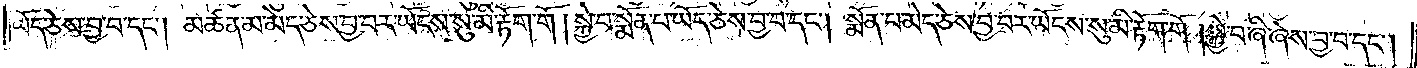ཡོད་ཅེས་བྱ་བ་དང༌། མཚན་མ་མེད་ཅེས་བྱ་བར་ཡོངས་སུ་མི་རྟོག་གོ །སྐྱེ་བ་སྨོན་པ་ཡོད་ཅེས་བྱ་བ་དང༌། སྨོན་པ་མེད་ཅེས་བྱ་བར་ཡོངས་སུ་མི་རྟོག་གོ །སྐྱེ་བ་ཞི་ཞེས་བྱ་བ་དང༌།
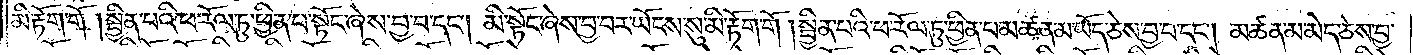མི་རྟོག་གོ །སྦྱིན་པའི་ཕ་རོལ་ཏུ་ཕྱིན་པ་སྟོང་ཞེས་བྱ་བ་དང༌། མི་སྟོང་ཞེས་བྱ་བར་ཡོངས་སུ་མི་རྟོག་གོ །སྦྱིན་པའི་ཕ་རོལ་ཏུ་ཕྱིན་པ་མཚན་མ་ཡོད་ཅེས་བྱ་བ་དང༌། མཚན་མ་མེད་ཅེས་བྱ་
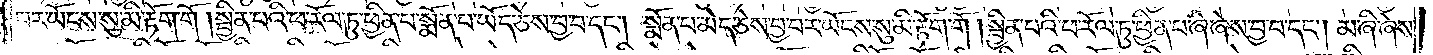བར་ཡོངས་སུ་མི་རྟོག་གོ །སྦྱིན་པའི་ཕ་རོལ་ཏུ་ཕྱིན་པ་སྨོན་པ་ཡོད་ཅེས་བྱ་བ་དང༌། སྨོན་པ་མེད་ཅེས་བྱ་བར་ཡོངས་སུ་མི་རྟོག་གོ །སྦྱིན་པའི་ཕ་རོལ་ཏུ་ཕྱིན་པ་ཞི་ཞེས་བྱ་བ་དང༌། མ་ཞི་ཞེས་
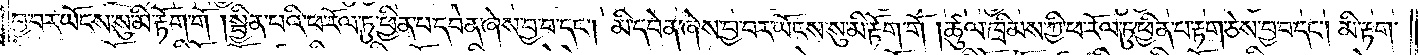བྱ་བར་ཡོངས་སུ་མི་རྟོག་གོ །སྦྱིན་པའི་ཕ་རོལ་ཏུ་ཕྱིན་པ་དབེན་ཞེས་བྱ་བ་དང༌། མི་དབེན་ཞེས་བྱ་བར་ཡོངས་སུ་མི་རྟོག་གོ །ཚུལ་ཁྲིམས་ཀྱི་ཕ་རོལ་ཏུ་ཕྱིན་པ་རྟག་ཅེས་བྱ་བ་དང༌། མི་རྟག་
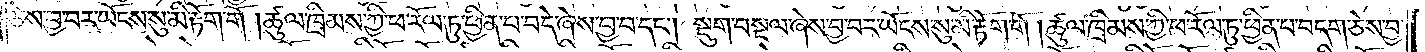ཅེས་བྱ་བར་ཡོངས་སུ་མི་རྟོག་གོ །ཚུལ་ཁྲིམས་ཀྱི་ཕ་རོལ་ཏུ་ཕྱིན་པ་བདེ་ཞེས་བྱ་བ་དང༌། སྡུག་བསྔལ་ཞེས་བྱ་བར་ཡོངས་སུ་མི་རྟོག་གོ །ཚུལ་ཁྲིམས་ཀྱི་ཕ་རོལ་ཏུ་ཕྱིན་པ་བདག་ཅེས་བྱ་
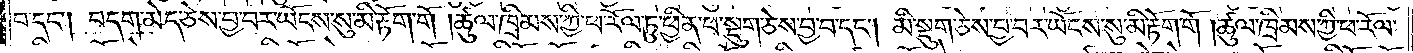བ་དང༌། བདག་མེད་ཅེས་བྱ་བར་ཡོངས་སུ་མི་རྟོག་གོ །ཚུལ་ཁྲིམས་ཀྱི་ཕ་རོལ་ཏུ་ཕྱིན་པ་སྡུག་ཅེས་བྱ་བ་དང༌། མི་སྡུག་ཅེས་བྱ་བར་ཡོངས་སུ་མི་རྟོག་གོ །ཚུལ་ཁྲིམས་ཀྱི་ཕ་རོལ་
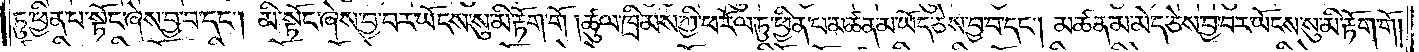ཏུ་ཕྱིན་པ་སྟོང་ཞེས་བྱ་བ་དང༌། མི་སྟོང་ཞེས་བྱ་བར་ཡོངས་སུ་མི་རྟོག་གོ །ཚུལ་ཁྲིམས་ཀྱི་ཕ་རོལ་ཏུ་ཕྱིན་པ་མཚན་མ་ཡོད་ཅེས་བྱ་བ་དང༌། མཚན་མ་མེད་ཅེས་བྱ་བར་ཡོངས་སུ་མི་རྟོག་གོ །
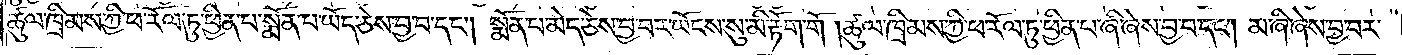ཚུལ་ཁྲིམས་ཀྱི་ཕ་རོལ་ཏུ་ཕྱིན་པ་སྨོན་པ་ཡོད་ཅེས་བྱ་བ་དང༌། སྨོན་པ་མེད་ཅེས་བྱ་བར་ཡོངས་སུ་མི་རྟོག་གོ །ཚུལ་ཁྲིམས་ཀྱི་ཕ་རོལ་ཏུ་ཕྱིན་པ་ཞི་ཞེས་བྱ་བ་དང༌། མ་ཞི་ཞེས་བྱ་བར་
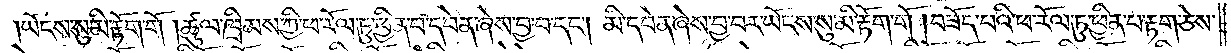ཡོངས་སུ་མི་རྟོག་གོ །ཚུལ་ཁྲིམས་ཀྱི་ཕ་རོལ་ཏུ་ཕྱིན་པ་དབེན་ཞེས་བྱ་བ་དང༌། མི་དབེན་ཞེས་བྱ་བར་ཡོངས་སུ་མི་རྟོག་གོ །བཟོད་པའི་ཕ་རོལ་ཏུ་ཕྱིན་པ་རྟག་ཅེས་
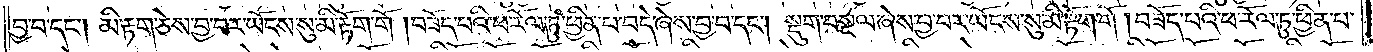བྱ་བ་དང༌། མི་རྟག་ཅེས་བྱ་བར་ཡོངས་སུ་མི་རྟོག་གོ །བཟོད་པའི་ཕ་རོལ་ཏུ་ཕྱིན་པ་བདེ་ཞེས་བྱ་བ་དང༌། སྡུག་བསྔལ་ཞེས་བྱ་བར་ཡོངས་སུ་མི་རྟོག་གོ །བཟོད་པའི་ཕ་རོལ་ཏུ་ཕྱིན་པ་
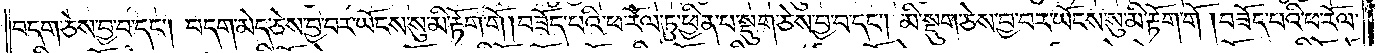བདག་ཅེས་བྱ་བ་དང༌། བདག་མེད་ཅེས་བྱ་བར་ཡོངས་སུ་མི་རྟོག་གོ །བཟོད་པའི་ཕ་རོལ་ཏུ་ཕྱིན་པ་སྡུག་ཅེས་བྱ་བ་དང༌། མི་སྡུག་ཅེས་བྱ་བར་ཡོངས་སུ་མི་རྟོག་གོ །བཟོད་པའི་ཕ་རོལ་
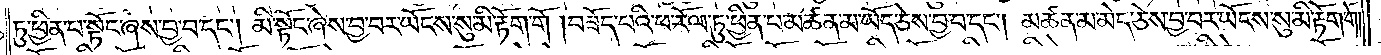ཏུ་ཕྱིན་པ་སྟོང་ཞེས་བྱ་བ་དང༌། མི་སྟོང་ཞེས་བྱ་བར་ཡོངས་སུ་མི་རྟོག་གོ །བཟོད་པའི་ཕ་རོལ་ཏུ་ཕྱིན་པ་མཚན་མ་ཡོད་ཅེས་བྱ་བ་དང༌། མཚན་མ་མེད་ཅེས་བྱ་བར་ཡོངས་སུ་མི་རྟོག་གོ །
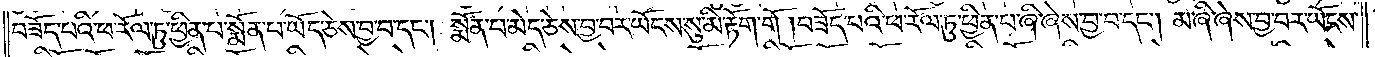བཟོད་པའི་ཕ་རོལ་ཏུ་ཕྱིན་པ་སྨོན་པ་ཡོད་ཅེས་བྱ་བ་དང༌། སྨོན་པ་མེད་ཅེས་བྱ་བར་ཡོངས་སུ་མི་རྟོག་གོ །བཟོད་པའི་ཕ་རོལ་ཏུ་ཕྱིན་པ་ཞི་ཞེས་བྱ་བ་དང༌། མ་ཞི་ཞེས་བྱ་བར་ཡོངས་
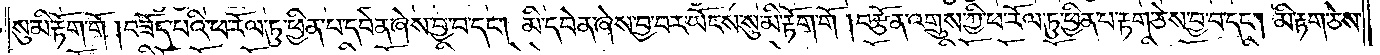སུ་མི་རྟོག་གོ །བཟོད་པའི་ཕ་རོལ་ཏུ་ཕྱིན་པ་དབེན་ཞེས་བྱ་བ་དང༌། མི་དབེན་ཞེས་བྱ་བར་ཡོངས་སུ་མི་རྟོག་གོ །བརྩོན་འགྲུས་ཀྱི་ཕ་རོལ་ཏུ་ཕྱིན་པ་རྟག་ཅེས་བྱ་བ་དང༌། མི་རྟག་ཅེས་
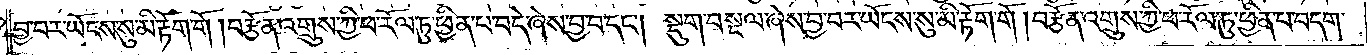བྱ་བར་ཡོངས་སུ་མི་རྟོག་གོ། བརྩོན་འགྲུས་ཀྱི་ཕ་རོལ་ཏུ་ཕྱིན་པ་བདེ་ཞེས་བྱ་བ་དང༌། སྡུག་བསྔལ་ཞེས་བྱ་བར་ཡོངས་སུ་མི་རྟོག་གོ །བརྩོན་འགྲུས་ཀྱི་ཕ་རོལ་ཏུ་ཕྱིན་པ་བདག་
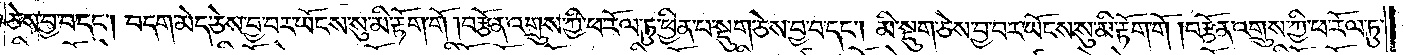ཅེས་བྱ་བ་དང༌། བདག་མེད་ཅེས་བྱ་བར་ཡོངས་སུ་མི་རྟོག་གོ །བརྩོན་འགྲུས་ཀྱི་ཕ་རོལ་ཏུ་ཕྱིན་པ་སྡུག་ཅེས་བྱ་བ་དང༌། མི་སྡུག་ཅེས་བྱ་བར་ཡོངས་སུ་མི་རྟོག་གོ །བརྩོན་འགྲུས་ཀྱི་ཕ་རོལ་ཏུ་
